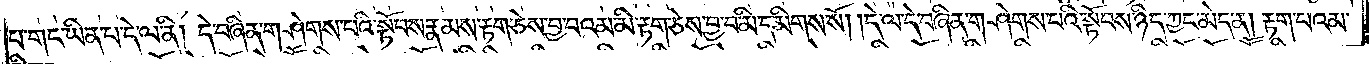པ་གང་ཡིན་པ་དེ་ལ་ནི། དེ་བཞིན་གཤེགས་པའི་སྟོབས་རྣམས་རྟག་ཅེས་བྱ་བའམ་མི་རྟག་ཅེས་བྱ་བ་མི་དམིགས་སོ། །དེ་ལ་དེ་བཞིན་གཤེགས་པའི་སྟོབས་ཉིད་ཀྱང་མེད་ན། རྟག་པའམ་
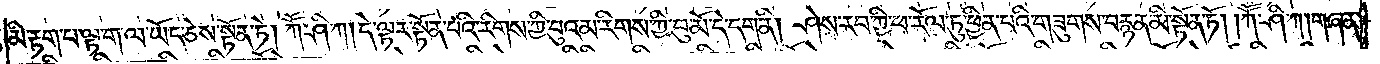མི་རྟག་པ་ལྟ་ག་ལ་ཡོད་ཅེས་སྟོན་ཏེ། ཀཽ་ཤི་ཀ། དེ་ལྟར་སྟོན་པའི་རིགས་ཀྱི་བུའམ་རིགས་ཀྱི་བུ་མོ་དེ་དག་ནི། ཤེས་རབ་ཀྱི་ཕ་རོལ་ཏུ་ཕྱིན་པའི་གཟུགས་བརྙན་མི་སྟོན་ཏོ། །ཀཽ་ཤི་ཀ། གཞན་
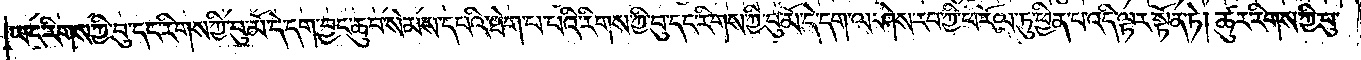ཡང་རིགས་ཀྱི་བུ་དང་རིགས་ཀྱི་བུ་མོ་དེ་དག་བྱང་ཆུབ་སེམས་དཔའི་ཐེག་པ་པའི་རིགས་ཀྱི་བུ་དང་རིགས་ཀྱི་བུ་མོ་དེ་དག་ལ་ཤེས་རབ་ཀྱི་ཕ་རོལ་ཏུ་ཕྱིན་པ་འདི་ལྟར་སྟོན་ཏེ། ཚུར་རིགས་ཀྱི་བུ་
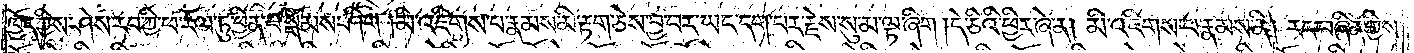ཁྱོད་ཀྱིས་ཤེས་རབ་ཀྱི་ཕ་རོལ་ཏུ་ཕྱིན་པ་སྒོམས་ཤིག །མི་འཇིགས་པ་རྣམས་མི་རྟག་ཅེས་བྱ་བར་ཡང་དག་པར་རྗེས་སུ་མ་ལྟ་ཞིག །དེ་ཅིའི་ཕྱིར་ཞེ་ན། མི་འཇིགས་པ་རྣམས་ནི། རང་བཞིན་གྱིས་
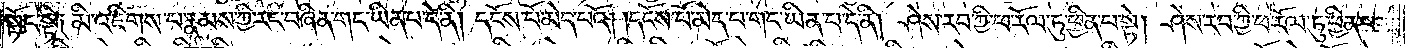སྟོང་སྟེ༑ མི་འཇིགས་པ་རྣམས་ཀྱི་རང་བཞིན་གང་ཡིན་པ་དེ་ནི། དངོས་པོ་མེད་པའོ། །དངོས་པོ་མེད་པ་གང་ཡིན་པ་དེ་ནི། ཤེས་རབ་ཀྱི་ཕ་རོལ་ཏུ་ཕྱིན་པ་སྟེ། ཤེས་རབ་ཀྱི་ཕ་རོལ་ཏུ་ཕྱིན་པ་
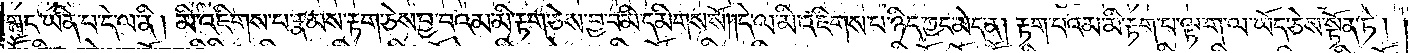གང་ཡིན་པ་དེ་ལ་ནི། མི་འཇིགས་པ་རྣམས་རྟག་ཅེས་བྱ་བའམ་མི་རྟག་ཅེས་བྱ་བ་མི་དམིགས་སོ། །དེ་ལ་མི་འཇིགས་པ་ཉིད་ཀྱང་མེད་ན། རྟག་པའམ་མི་རྟག་པ་ལྟ་ག་ལ་ཡོད་ཅེས་སྟོན་ཏེ།
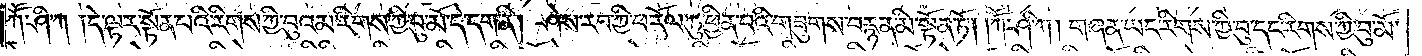ཀཽ་ཤི་ཀ། དེ་ལྟར་སྟོན་པའི་རིགས་ཀྱི་བུའམ་རིགས་ཀྱི་བུ་མོ་དེ་དག་ནི། ཤེས་རབ་ཀྱི་ཕ་རོལ་ཏུ་ཕྱིན་པའི་གཟུགས་བརྙན་མི་སྟོན་ཏོ། །ཀཽ་ཤི་ཀ། གཞན་ཡང་རིགས་ཀྱི་བུ་དང་རིགས་ཀྱི་བུ་མོ་
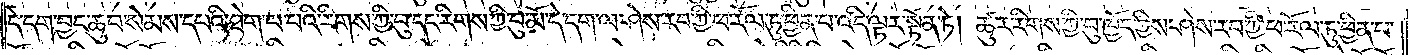དེ་དག་བྱང་ཆུབ་སེམས་དཔའི་ཐེག་པ་པའི་རིགས་ཀྱི་བུ་དང་རིགས་ཀྱི་བུ་མོ་དེ་དག་ལ་ཤེས་རབ་ཀྱི་ཕ་རོལ་ཏུ་ཕྱིན་པ་འདི་ལྟར་སྟོན་ཏེ། ཚུར་རིགས་ཀྱི་བུ་ཁྱོད་ཀྱིས་ཤེས་རབ་ཀྱི་ཕ་རོལ་ཏུ་ཕྱིན་པ་
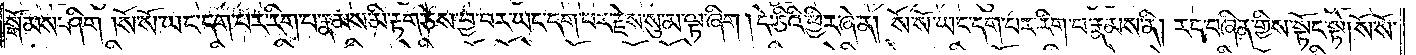སྒོམས་ཤིག །སོ་སོ་ཡང་དག་པར་རིག་པ་རྣམས་མི་རྟག་ཅེས་བྱ་བར་ཡང་དག་པར་རྗེས་སུ་མ་ལྟ་ཞིག །དེ་ཅིའི་ཕྱིར་ཞེ་ན། སོ་སོ་ཡང་དག་པར་རིག་པ་རྣམས་ནི། རང་བཞིན་གྱིས་སྟོང་སྟེ། སོ་སོ་
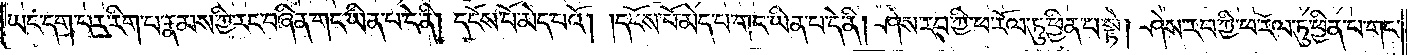ཡང་དག་པར་རིག་པ་རྣམས་ཀྱི་རང་བཞིན་གང་ཡིན་པ་དེ་ནི། དངོས་པོ་མེད་པའོ། །དངོས་པོ་མེད་པ་གང་ཡིན་པ་དེ་ནི། ཤེས་རབ་ཀྱི་ཕ་རོལ་ཏུ་ཕྱིན་པ་སྟེ། ཤེས་རབ་ཀྱི་ཕ་རོལ་ཏུ་ཕྱིན་པ་གང་
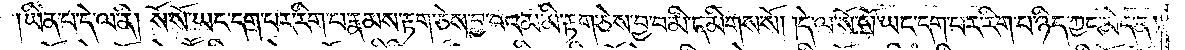ཡིན་པ་དེ་ལ་ནི། སོ་སོ་ཡང་དག་པར་རིག་པ་རྣམས་རྟག་ཅེས་བྱ་བའམ་མི་རྟག་ཅེས་བྱ་བ་མི་དམིགས་སོ། །དེ་ལ་སོ་སོ་ཡང་དག་པར་རིག་པ་ཉིད་ཀྱང་མེད་ན།
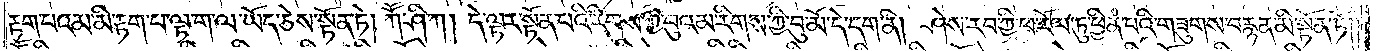རྟག་པའམ་མི་རྟག་པ་ལྟ་ག་ལ་ཡོད་ཅེས་སྟོན་ཏེ། ཀཽ་ཤི་ཀ། དེ་ལྟར་སྟོན་པའི་རིགས་ཀྱི་བུའམ་རིགས་ཀྱི་བུ་མོ་དེ་དག་ནི། ཤེས་རབ་ཀྱི་ཕ་རོལ་ཏུ་ཕྱིན་པའི་གཟུགས་བརྙན་མི་སྟོན་ཏོ། །
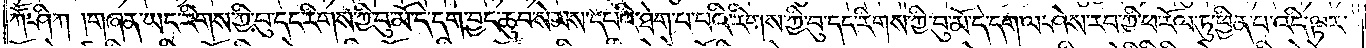ཀཽ་ཤི་ཀ། གཞན་ཡང་རིགས་ཀྱི་བུ་དང་རིགས་ཀྱི་བུ་མོ་དེ་དག་བྱང་ཆུབ་སེམས་དཔའི་ཐེག་པ་པའི་རིགས་ཀྱི་བུ་དང་རིགས་ཀྱི་བུ་མོ་དེ་དག་ལ་ཤེས་རབ་ཀྱི་ཕ་རོལ་ཏུ་ཕྱིན་པ་འདི་ལྟར་
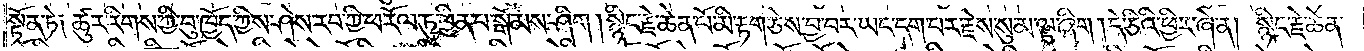སྟོན་ཏེ༑ ཚུར་རིགས་ཀྱི་བུ་ཁྱོད་ཀྱིས་ཤེས་རབ་ཀྱི་ཕ་རོལ་ཏུ་ཕྱིན་པ་སྒོམས་ཤིག། སྙིང་རྗེ་ཆེན་པོ་མི་རྟག་ཅེས་བྱ་བར་ཡང་དག་པར་རྗེས་སུ་མ་ལྟ་ཞིག །དེ་ཅིའི་ཕྱིར་ཞེ་ན། སྙིང་རྗེ་ཆེན་
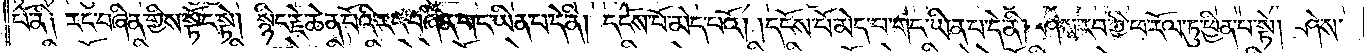པོ་ནི༑ རང་བཞིན་གྱིས་སྟོང་སྟེ། སྙིང་རྗེ་ཆེན་པོའི་རང་བཞིན་གང་ཡིན་པ་དེ་ནི། དངོས་པོ་མེད་པའོ། །དངོས་པོ་མེད་པ་གང་ཡིན་པ་དེ་ནི། ཤེས་རབ་ཀྱི་ཕ་རོལ་ཏུ་ཕྱིན་པ་སྟེ། ཤེས་
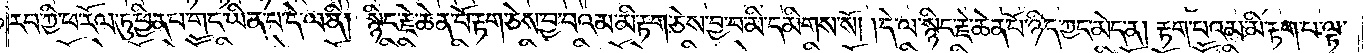རབ་ཀྱི་ཕ་རོལ་ཏུ་ཕྱིན་པ་གང་ཡིན་པ་དེ་ལ་ནི། སྙིང་རྗེ་ཆེན་པོ་རྟག་ཅེས་བྱ་བའམ་མི་རྟག་ཅེས་བྱ་བ་མི་དམིགས་སོ། །དེ་ལ་སྙིང་རྗེ་ཆེན་པོ་ཉིད་ཀྱང་མེད་ན། རྟག་པའམ་མི་རྟག་པ་ལྟ་
